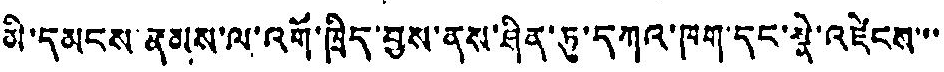མི་དམངས་རྣམས་ལ་འགོ་ཁྲིད་བྱས་ནས་ཤིན་ཏུ་དཀའ་ཁག་དང་སྣེ་འཛེངས་་་
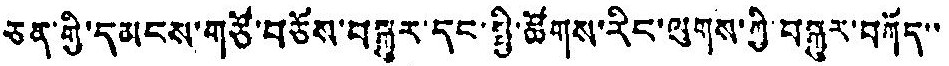ཅན་གྱི་དམངས་གཙོ་བཅོས་བསྒྱུར་དང་སྤྱི་ཚོགས་རིང་ལུགས་ཀྱི་བསྒྱུར་བཀོད་་
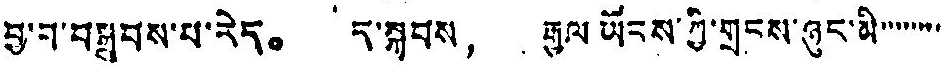བྱ་བ་བསྒྲུབས་པ་རེད。 ད་སྐབས， རྒྱལ ཡོངས་ཀྱི་གྲངས་ཉུང་མི་་་་་་་་
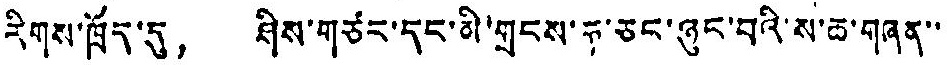རིགས་ཁྲོད་དུ， ཤིས་གཙང་དང་མི་གྲངས་ཧ་ཅང་ཉུང་བའི་ས་ཆ་གཞན་་
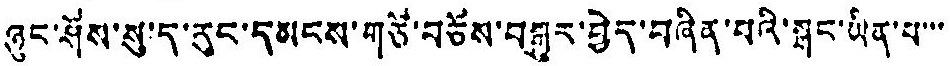ཉུང་ཤོས་སུ་ད་རུང་དམངས་གཙོ་བཅོས་བསྒྱུར་བྱེད་བཞིན་པའི་སྒང་ཡིན་པ་་་་
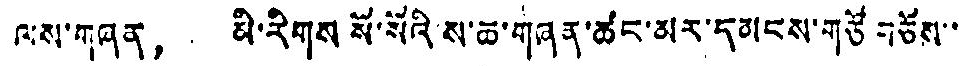ལས་གཞན， མི་རིགས སོ་སོའི་ས་ཆ་གཞན་ཚང་མར་དམངས་གཙོ བཅོས་་
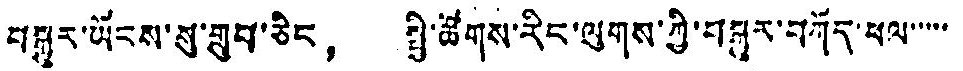བསྐྱར་ཡོངས་སུ་གྲུབ་ཅིང， སྤྱི་ཚོགས་རིང་ལུགས་ཀྱི་བསྐུར་བཀོད་ཕལ་་་་་
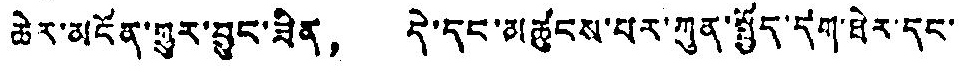ཆེར་མངོན་གྱུར་བྱུང་ཟིན， དེ་དང་མཚུངས་པར་ཀུན་སྤྱོད་དག་ཐེར་དང་།
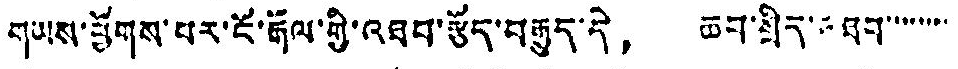གཡས་ཕྱོགས་པར་ངོ་རྒོལ་གྱི་འཐབ་རྩོད་བརྒྱུད་དེ， ཆབ་སྲིད་འཐབ་་་་་་་་
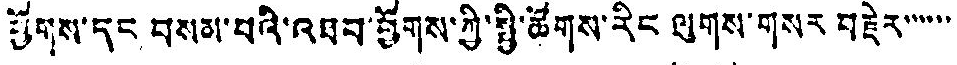ཕྱོགས་དང བསམ་པའི་འཐབ་ཕྱོགས་ཀྱི་སྤྱི་ཚོགས་རིང ལུགས་གསར བརྗེར་་་་་་
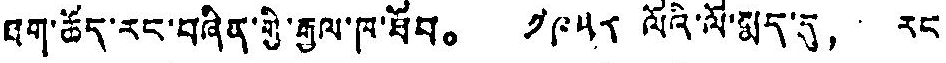ཐག་ཆོད་རང་བཞིན་གྱི་རྒྱལ་ཁ་ཐོབ。 ༡༩༥༨ ལོའི་ལོ་མྨད་དུ， རང
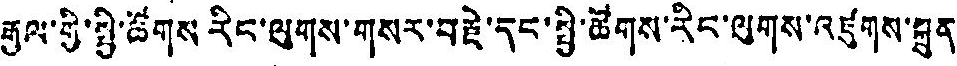རྒྱལ་གྱི་སྤྱི་ཚོགས རིང་ལུགས་གསར་བརྗེ་དང་སྤྱི་ཚོགས་རིང་ལུགས་འཛུགས་སྐྲུན
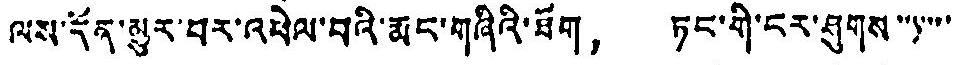ལས་དོན་མྱུར་བར་འཕེལ་བའི་རྨང་གཞིའི་ཐོག， ཏང་གི་ངར་ཤུགས་་་་་་
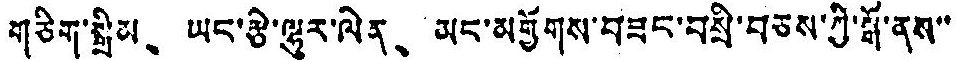གཅིག་སྒྲིམ、 ཡང་རྩེ་ལྷུར་ལེན、 ཡང་མགྱོགས་བཟང་བསྲི་བཅས་ཀྱི་སྒོ་ནས་་
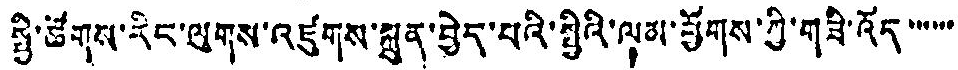སྤྱི་ཚོགས་རིང་ལུགས་འཛུགས་སྐྲུན་བྱེད་པའི་སྤྱིའི་ལམ་ཕྱོགས་ཀྱི་གཟི་འོད་་་་་་་
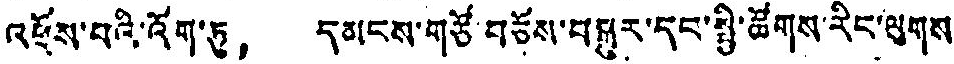འཕྲོས་པའི་འོག་ཏུ， དམངས་གཙོ་བཅོས་བསྒྱུར་དང་སྤྱི་ཚོགས་རིང་ལུགས་
